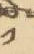༡
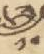༡༠
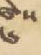༦
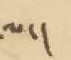ལ་།
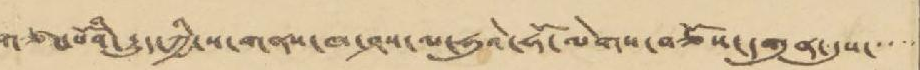གཙང་པོའི་རྒྱུད་ཀྱི་ས་གནས་ཁ་ཤས་ལ་ཧུའེ་ཧོ་ལེགས་བཅོས་དགུན་དུས་་་་་
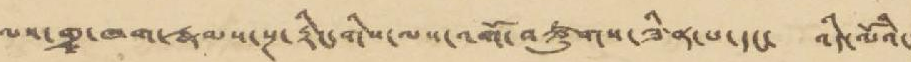ལས་གྲྭ་ཁག་རྣམས་སྔ་རྟིང་གིས་ལས་འགོ་བཙུགས་ཟིན་པ་དང་ འདི་ལོའི་
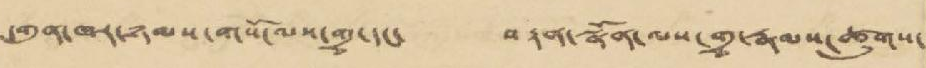དགུན་ཁར་ཉམས་གསོ་ལས་གྲྭ་དང་ བརྟན་སྣོན་ལས་གྲྭ་རྣམས་ཚུགས་
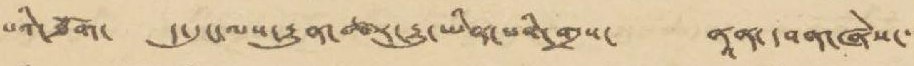པའི་ཐོག་ ད་དུང་ལས་རྒྱུན་ཚར་རྒྱུ་ཡིན་པའི་གྲས་ ནཱན་བན་ཞེས་་་
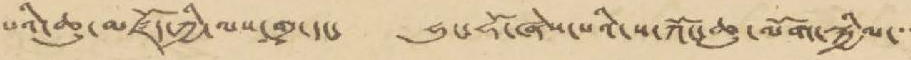པའི་ཆུ་མཛོད་ཀྱི་ལས་གྲྭ་དང་ ཧུང་ཧོ་ཞེས་པའི་ས་ཀོང་ཆུ་ལོག་སྐྱིལ་་་་
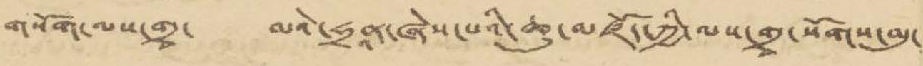གསོག་ལས་གྲྭ་ མའེ་ཧྲནཱ་ཞེས་པའི་ཆུ་མཛོད་ཀྱི་ལས་གྲྭ་སོགས་མུ་
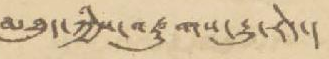མཐུད་ཀྱིས་འཛུགས་རྒྱུ་རེད་།
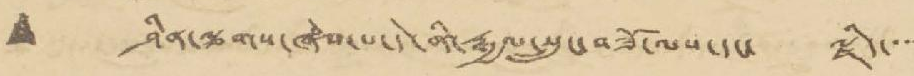• ཤིན་ལྕགས་ཞེས་པ་དེ་ནི་རྒྱལ་སྲུང་བཟོ་ལས་དང་ ལྗིད་་་་
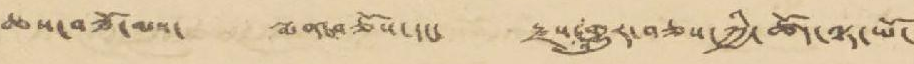ཆས་བཟོ་ལས་ སྨན་བཅོས་དང་ རྫས་འགྱུར་བཅས་ཀྱི་ཚོད་ལྟ་ཡོ་
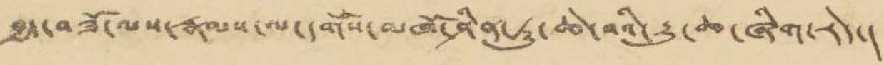བྱད་བཟོ་ལས་རྣམས་ལ་དགོས་མཁོ་ཤིན་ཏུ་ཆེ་བའི་རྒྱུ་ཆ་ཞིག་རེད་།
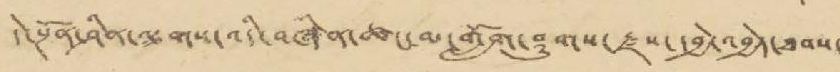དེ་སྔོན་ཤིན་ལྕགས་འདི་བཞིན་ཚང་མ་གློག་ཤུགས་རྫས་དབྱེ་འབྱེད་ཐབས་
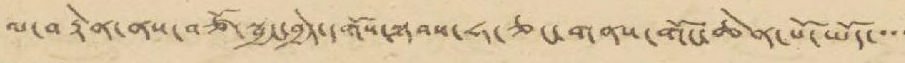མ་བརྟེན་ནས་བཙོ་སྦྱང་བྱེད་དགོས་སྟབས་ཧ་ཅང་གནས་གོང་ཆེན་པོ་ཡོད་་་་་
